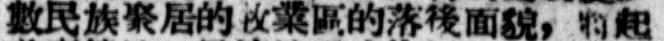數民族聚居的牧業區的落後面貌，將起
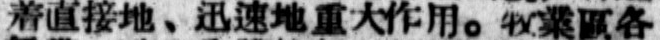着直接地、迅速地重大作用。牧業區各
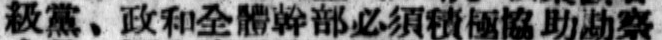級黨、政和全體幹部必須積極協助勘察
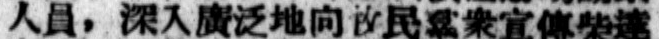人員，深入廣泛地向牧民羣衆宣傳柴達
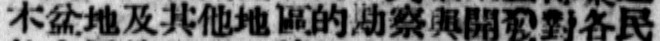木盆地及其他地區的勘察與開發對各民
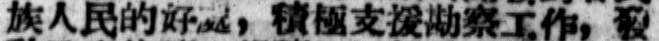族人民的好處，積極支援勘察工作，發
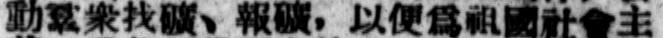動羣衆找礦、報礦，以便爲祖國社會主
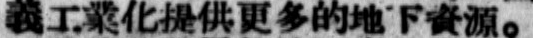義工業化提供更多的地下資源。
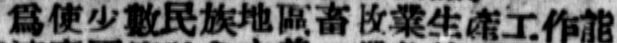爲使少數民族地區畜牧業生產工作能
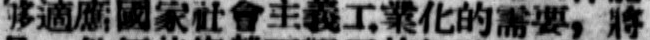夠適應國家社會主義工業化的需要，將
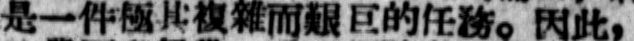是一件極其複雜而艱巨的任務。因此，
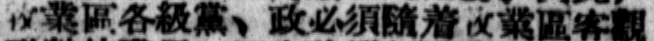牧業區各級黨、政必須隨着牧業區客觀
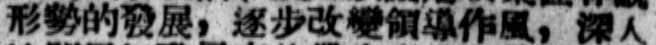形勢的發展，逐步改變領導作風，深入
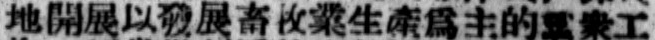地開展以發展畜牧業生產爲主的羣衆工
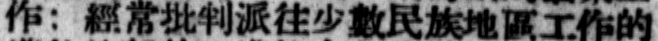作；經常批判派往少數民族地區工作的
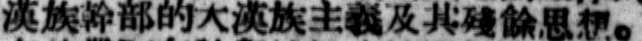漢族幹部的大漢族主義及其殘餘思想。
